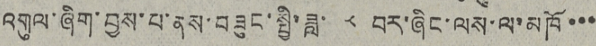འགུལ་ཞིག་བྱས་པ་ནས་བཟུང་སྤྱི་ཟླ་ ༨ བར་ཞིང་ལས་ལ་མཁོ་་་
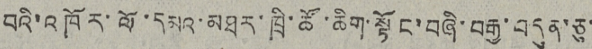བའི་འཁོར་ལོ་དམའ་མཐར་ཁྲི་ཚོ་ཆིག་སྟོང་བཞི་བརྒྱ་བདུན་ཅུ་
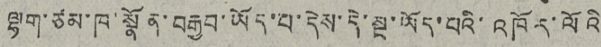ལྷག་ཙམ་ཁ་སྣོན་བརྒྱབ་ཡོད་པ་དེས་དེ་སྔ་ཡོད་པའི་འཁོར་ལོའི
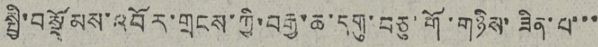སྤྱི་བསྡོམས་འབོར་གྲངས་ཀྱི་བརྒྱ་ཆ་དགུ་བཅུ་གོ་གཉིས་ཟིན་པ་་་
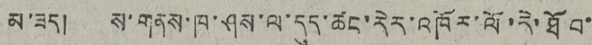མ་ཟད། ས་གནས་ཁ་ཤས་ལ་དུད་ཚང་རེར་འཁོར་ལོ་རེ་ཐོབ་
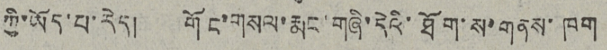ཀྱི་ཡོད་པ་རེད། གོང་གསལ་རྨང་གཞི་དེའི་ཐོག་ས་གནས་ཁག
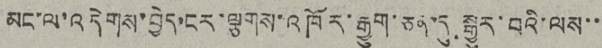མང་ལ་འདེགས་བྱེད་ངར་ལྕགས་འཁོར་རྒྱུག་ཅན་དུ སྒྱུར་བའི་ལས་་
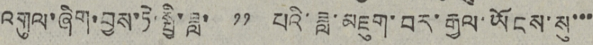འགུལ་ཞིག་བྱས་ཏེ་སྤྱི་ཟླ་ ༡༡ པའི་ཟླ་མཇུག་པར་རྒྱལ་ཡོངས་སུ་་་
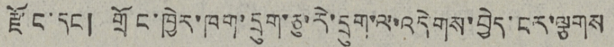རྫོང་དང ། གྲོང་ཁྱེར་ཁག་དྲུག་ཅུ་རེ་དྲུག་ལ་འདེགས་བྱེད་ངར་ལྕགས
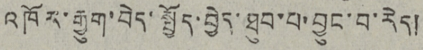འཁོར་རྒྱུག་བེད་སྤྱོད་བྱེད་ཐུབ་པ་བྱུང་བ་རེད།
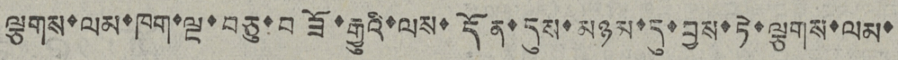ལྕགས་ལམ་ཁག་ལྔ་བཅུ་བཟོ་རྒྱུའི་ལས་དོན་དུས་མཉམ་དུ་བྱས་ཏེ་ལྕགས་ལམ་
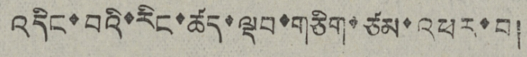འདིང་བའི་རིང་ཚད་ལྡབ་གཅིག་ཙམ་འཕར་བ།
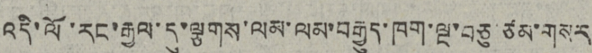འདི་ལོ་རང་རྒྱལ་དུ་ལྕགས་ལམ་ལམ་བརྒྱུད་ཁག་ལྔ་བཅུ་ཙམ་གསར
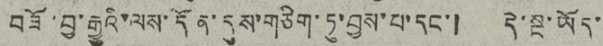བཟོ་བྱ་རྒྱུའི་ལས་དོན་དུས་གཅིག་ཏུ་བྱས་པ་དང་། དེ་སྔ་ཡོད་
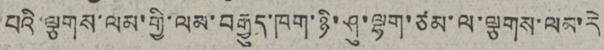པའི་ལྕགས་ལམ་གྱི་ལམ་བརྒྱུད་ཁག་ཉི་ཤུ་ལྷག་ཙམ་ལ་ལྕགས་ལམ་རེ
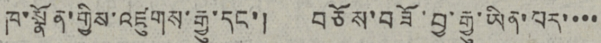ཁ་སྣོན་གྱིས་འཛུགས་རྒྱུ་དང་། བཅོས་བཟོ་བྱ་རྒྱུ་ཡིན་པར་་་་
